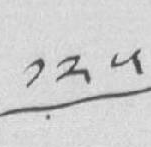༡༢༥
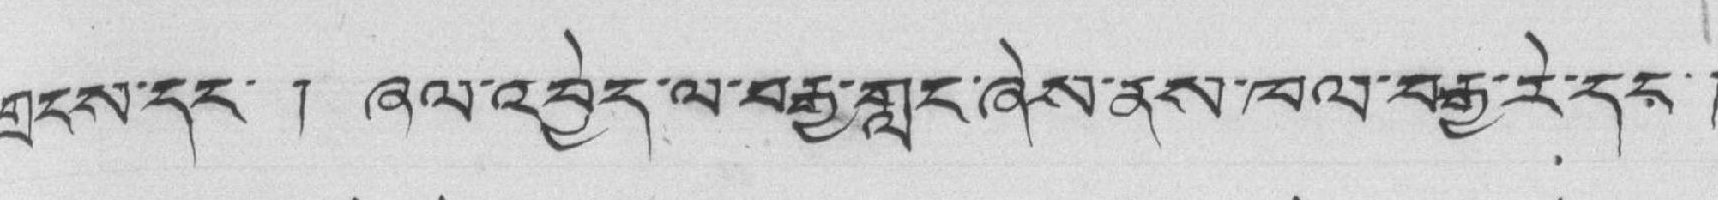གྲངས་དང་ ། ཞལ་འབྱེད་ལ་བརྒྱ་གླང་ཞེས་ནས་ཁལ་བརྒྱ་རེ་དང་།
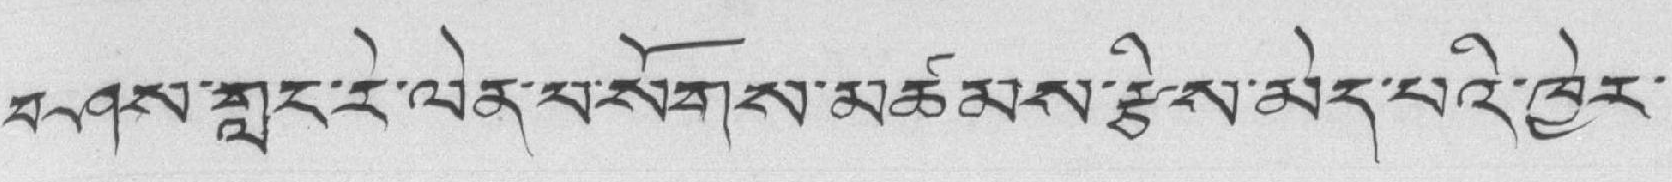བཤས་གླང་རེ་ལེན་པ་སོགས་མཚམས་རྩིས་མེད་པའི་ཁྱེར་
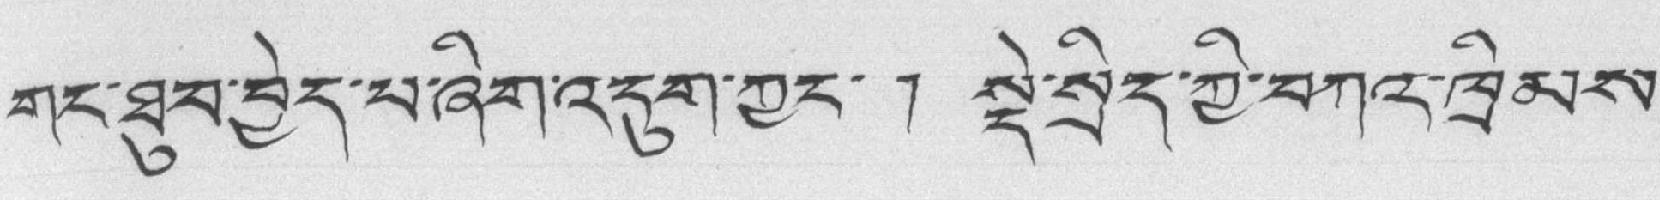གང་ཐུབ་བྱེད་པ་ཞིག་འདུག་ཀྱང་ ། སྡེ་སྲིད་ཀྱི་བཀའ་ཁྲིམས་
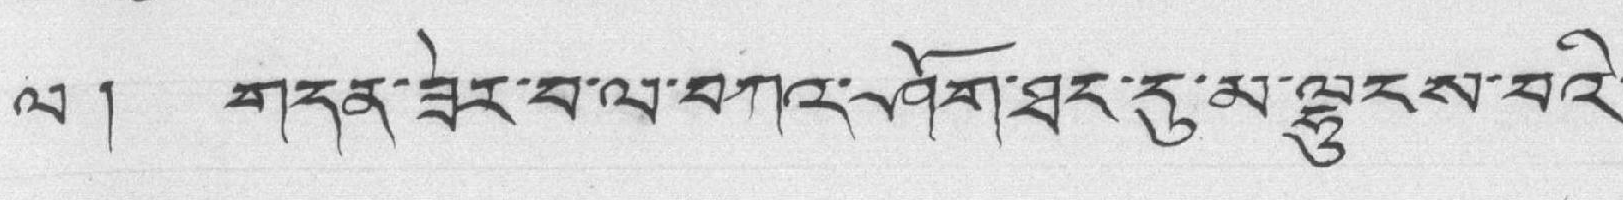ལ ། གདན་ཟེར་བ་ལ་བཀའ་ཤོག་ཐང་དུ་མ་ལྷུངས་བའི་
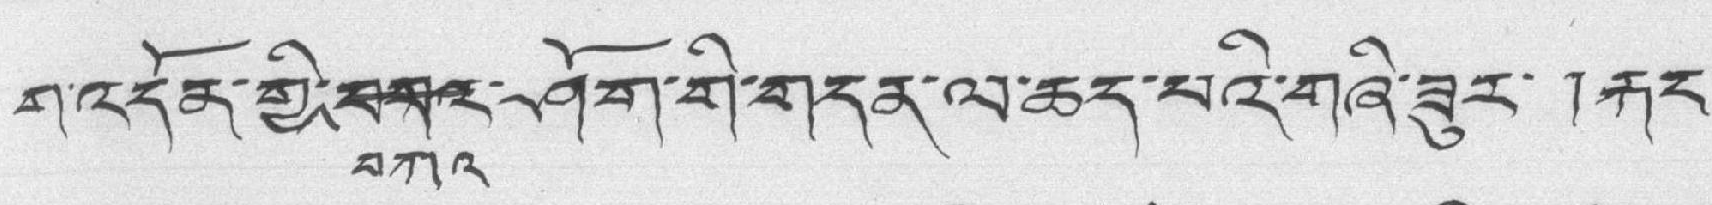ག་འདོན་གྱི་བགའབཀའ་ཤོག་གི་གདན་ལ་ཆད་པའི་གཞི་ཟུར་ །རྐང་
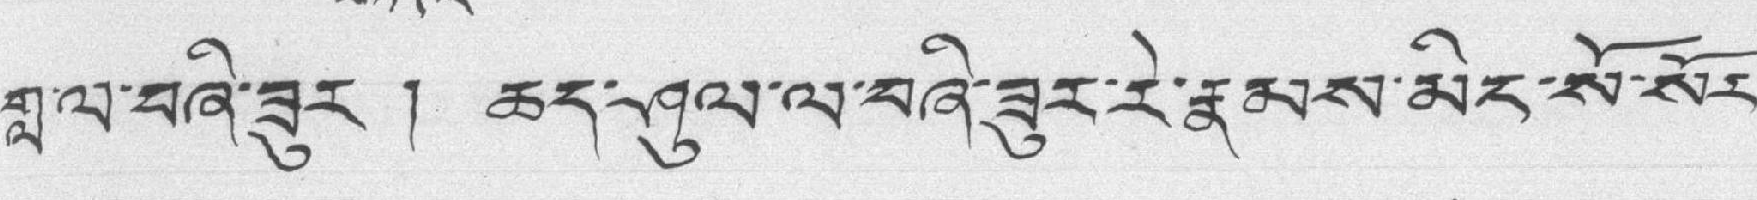གླ་ལ་བཞི་ཟུར ། ཆད་ཤུལ་ལ་བཞི་ཟུར་རེ་རྣམས་མིང་སོ་སོར་
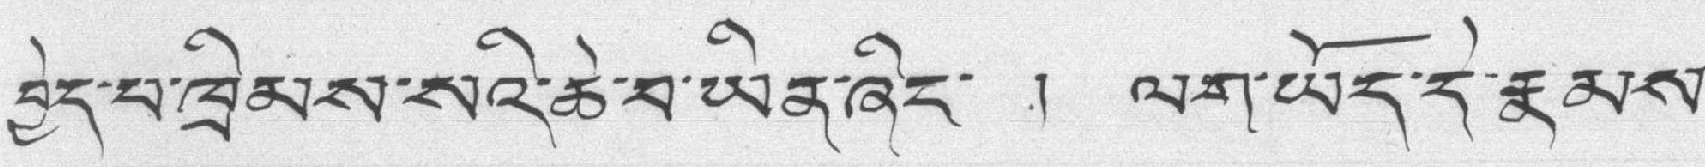བྱེད་པ་ཁྲིམས་སའི་ཆེ་བ་ཡིན་ཞིང་ ། ལག་ཡོད་དེ་རྣམས་
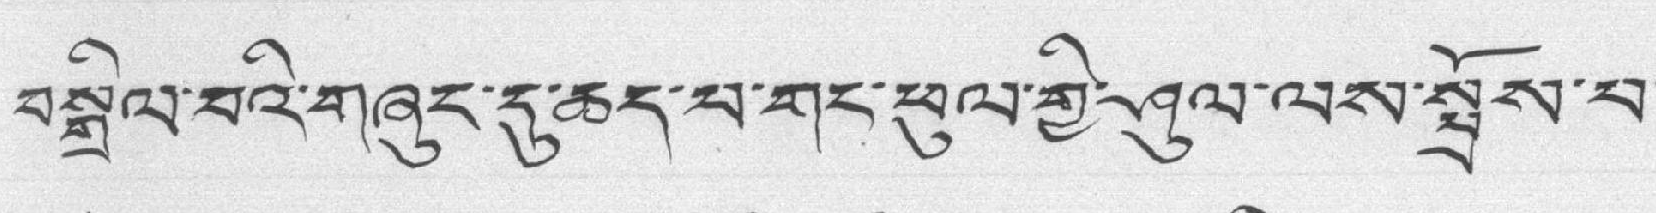བསྒྲིལ་བའི་གཞུང་དུ་ཆད་པ་གང་ཕུལ་གྱི་ཤུལ་ལས་སྤྲོས་པ་
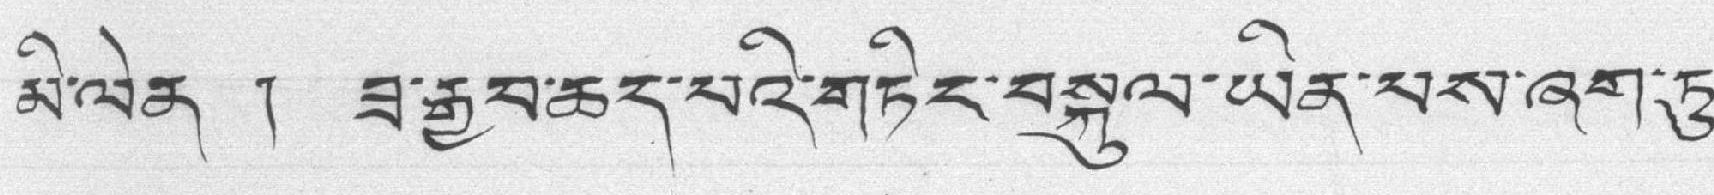མི་ལེན ། ཟ་རྒྱབ་ཆད་པའི་གཏིང་བསྐུལ་ཡིན་པས་ཞག་ཏུ་
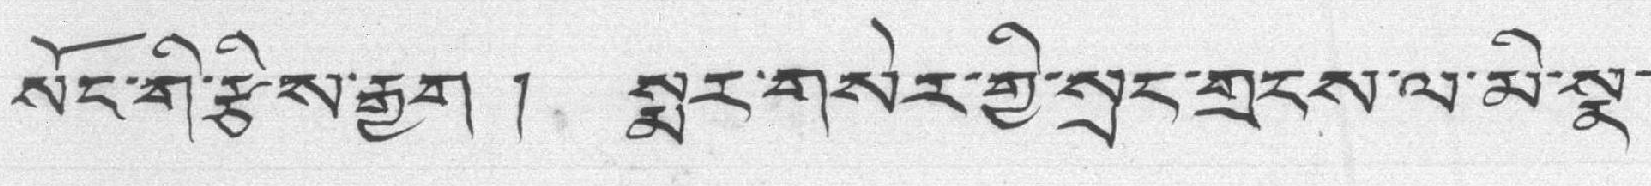སོང་གི་རྩིས་རྒྱག ། སྨར་གསེར་གྱི་སྲང་གྲངས་ལ་མི་སྣ་
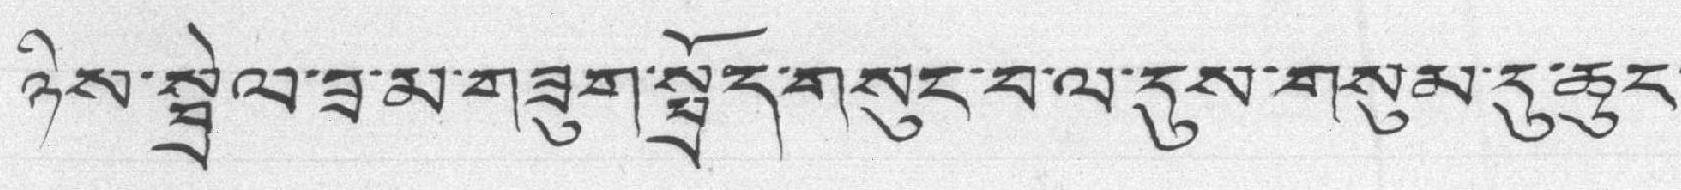ཉིས་སྦྲེལ་ཟ་མ་གཟུག་སྤྲོད་གསུང་བ་ལ་དུས་གསུམ་དུ་ཆུང་
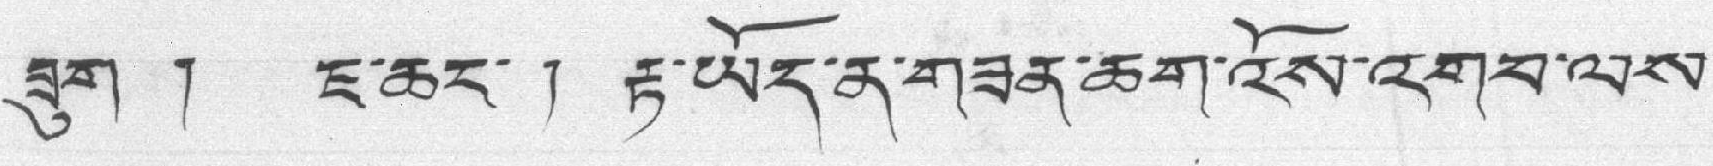ཟུག ། ཇ་ཆང་ ། རྟ་ཡོད་ན་གཟན་ཆག་འོས་འགབ་ལས་
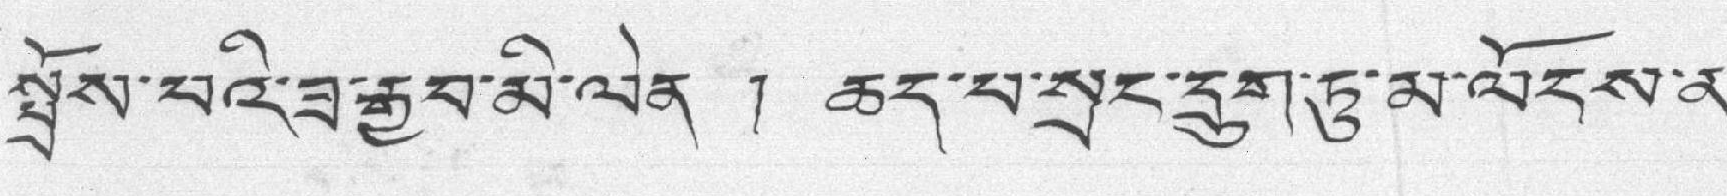སྤྲོས་པའི་ཟ་རྒྱབ་མི་ལེན ། ཆད་པ་སྲང་དྲུག་ཏུ་མ་ལོངས་ན་
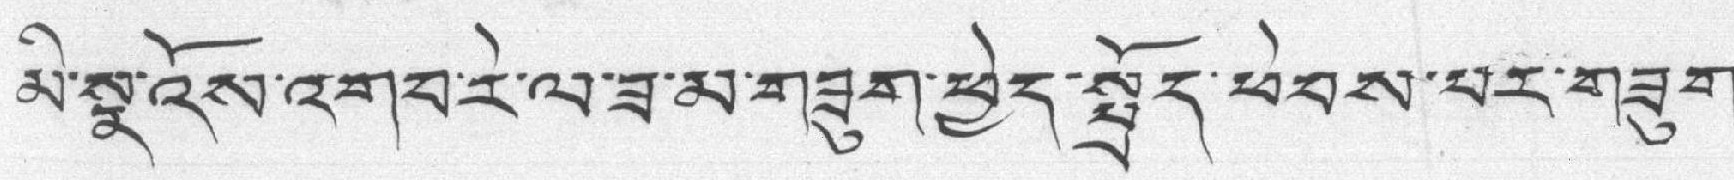མི་སྣ་འོས་འགབ་རེ་ལ་ཟ་མ་གཟུག་ཕྱེད་སྤྲོད་ཕེབས་པར་གཟུག་
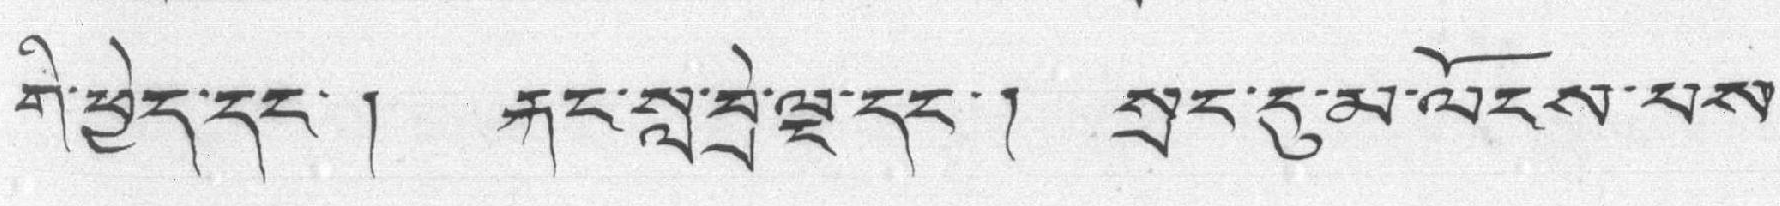གི་ཕྱེད་དང་། རྐང་སླ་བྲེ་ལྔ་དང་། སྲང་དུ་མ་ལོངས་པས་
